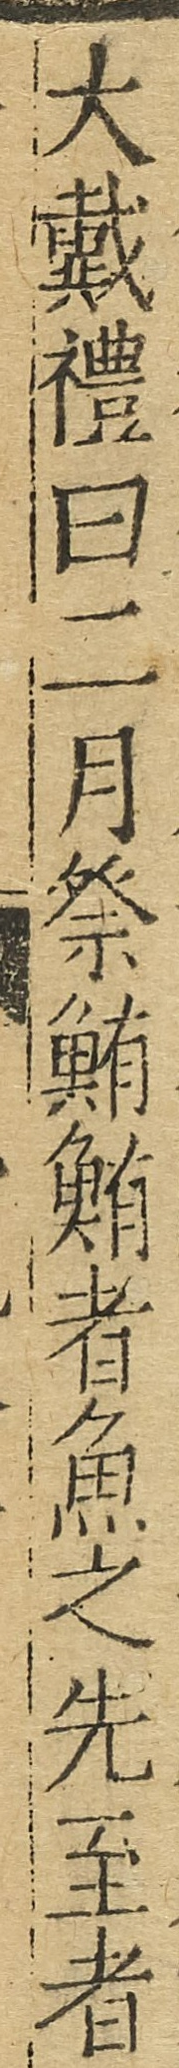大戴禮曰二月祭鮪鮪者魚之先至者
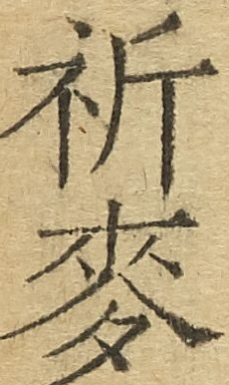祈麥
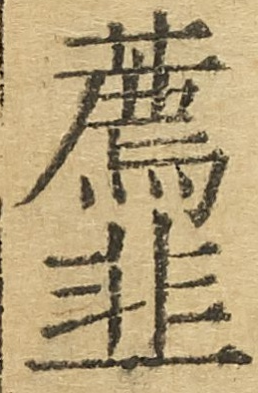薦韭
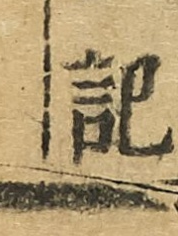記
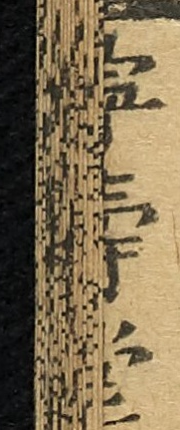寧壽堂
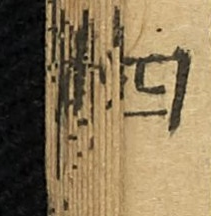四
